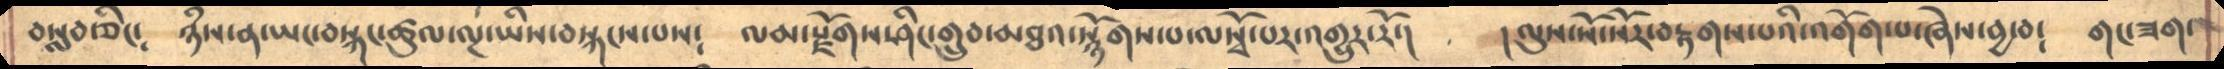བསླབ་ཅིང༴   ཉྃས་ན་ཡང་བསྐང་ཚུལ་ལྔ་ཡིས་བསྐངས་པས༴   ལམ་རྫོགས་ཤིང་གྲུབ་མཐའ་སྙོགས་པ་ལསྭོ་པར་འགྱུར་རོ་།   །ལུས་སོ་སོར་བརྟགས་པའི་འགོག་པ་ཞེས་བྱ་བ༴  གང་ཟག་
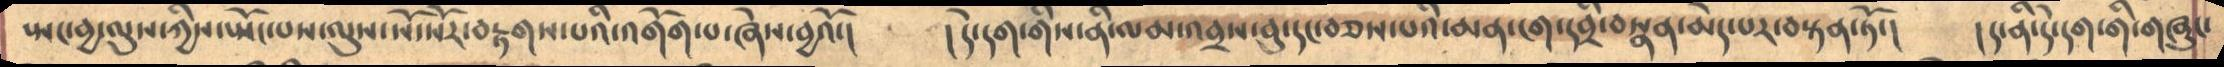སྤང་བྱ་ལུས་ཀྱིས་སྤོང་པས་ལུས་སོ་སོར་བརྟགས་པའི་འགོག་པ་ཞེས་བྱའོ་།   །དེ་དག་གིས་ནི་ལམ་འབྲས་བུ་དང་བཅས་པའི་མན་ངག་དབྲི་བསྣན་མེད་པར་བསྟན་ཏོ་།   །ད་ནི་དེ་དག་གི་གཞུང་
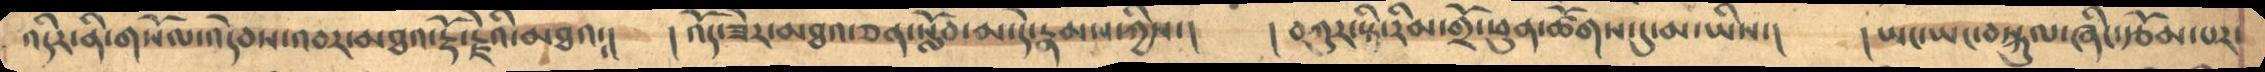འདིར་ནི་གསོལ་འདེབས་འབར་མཐའ་རྡོ་རྗེའི་མཐའ༴།  །འོད་ཟེར་མཐའ་ཅན་སློབ་མ་དེ་རྣམས་ཀྱིས་།  ། བཀུར་སྟི་རིམ་གྲོ་ཕུན་ཚོགས་དུ་མ་ཡིས་།   ། ཡང་ཡང་བསྐུལ་ཞིང་རྩོམ་པར་
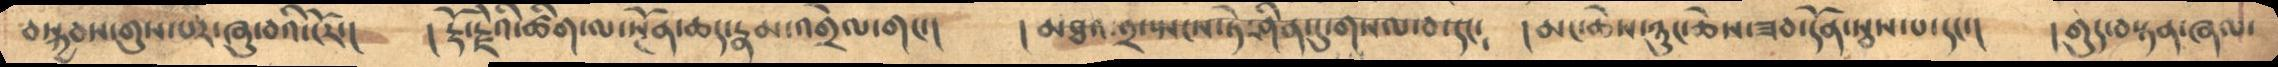བསྐྱབས་གུས་པར་ཞུ་བའི་ངོར་།    །རྡོ་རྗེའི་ཚིག་ལ་སྔོན་ཆད་རྣམ་འགྲེལ་གང་།   ། མཐའ་༢་སྤངས་ཏེ་ཤིན་དུ་གསལ་བ་དང༴   །མང་ཆེས་ཉུང་ཅེས་ཟབ་དོན་སྦས་པ་དང་།   །གུད་བསྟན་ཞལ་
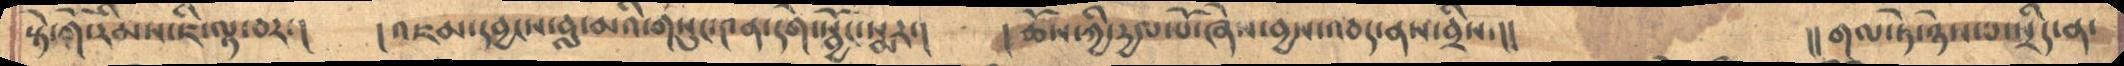སྟེ་གོ་རིམས་ཇི་ལྟ་བར་།    ། འཇམ་དབྱངས་བླ་མའི་གསུང་༤ན་དགེ་སྦྱོང་སྨར་།    ། ཆོས་ཀྱི་དྱལ་པོ་ཞེས་བྱས་འབད་ནས་བྲིས་།།        །། གལ་ཏེ་ཉེས་པ་སྲིད་ན་
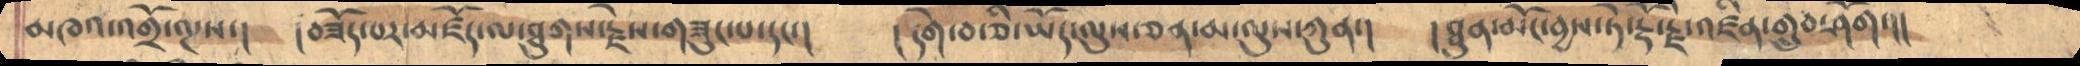མཁའ་འགྲོ་ལྔས་།     །བཟོད་པར་མཛོད་ལ་ཐུགས་རྗེས་གཟུང་པ་དང་།     ། དགེ་བ་ཅི་ཡོད་ལུས་ཅན་མ་ལུས་ཀུན་།    ། ཐུན་མོང་བྱས་ཏེ་རྡོ་རྗེ་འཛིན་གྲུབ་ཤོག་།།
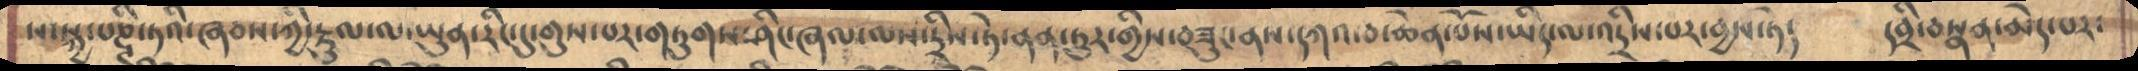ས་སྐྱ་པཎྚི་ཏའི་ཞབས་ཀྱི་རྡུལ་ལ་ཡུན་རིང་དུ་གུས་པར་གཏུགས་ཤིང་ཞལ་ལས་དྲིས་ཏེ་ནན་ཏུར་གྱིས་བཟུང་ནས་དཀའ་བ་ཆེན་པོས་ཡིད་ལ་འདྲིས་པར་བྱས་ཏེ༴   དབྲི་བསྣན་མེད་པར་
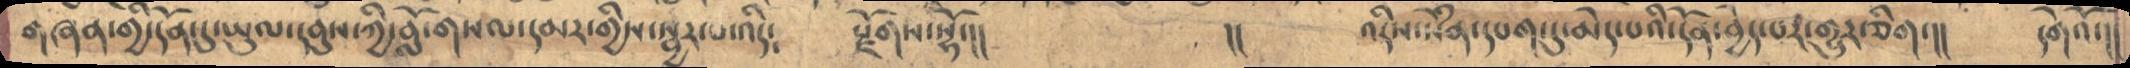གཞན་གྱི་དོན་དུ་ཡུལ་དབུས་ཀྱི་བློ་གསལ་དམར་གྱིས་སྦྱར་པ་འདི༴   རྫོགས་སྷོ་།།            །།    འདིས་སེཾན་དཔག་དུ་མེད་པའི་དོན་བྱེད་པར་གྱུར་ཅིག་།།      དགེའོ་།།
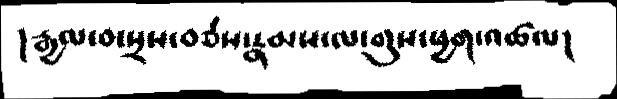།རྒྱལ་བ་སྲས་བཅས་རྣམས་ལ་གུས་ཕྱག་འཚལ།
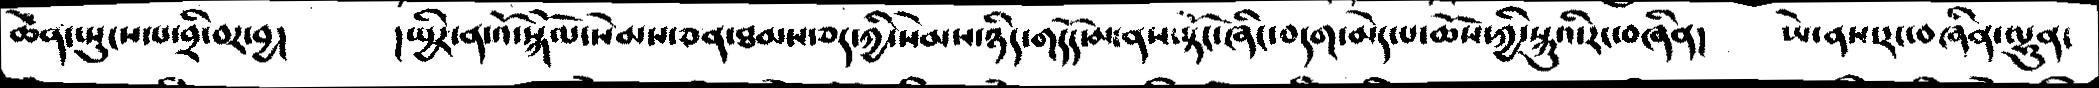ཆེན་སྤུངས་པ་བྲི་བར་བྱ།    །སྤྱིར་ན་འོ་སྐོལ་སེམས་ཅན་ཐམས་ཅད་ཀྱི་སེམས་ཉིད་གདོད་མ་ནས་སྟོང་ཞིང་བདག་མེད་པ་ཆོས་ཀྱི་སྐུའི་རང་བཞིན།  ཡེ་ནས་རང་བཞིན་ལྷུན་
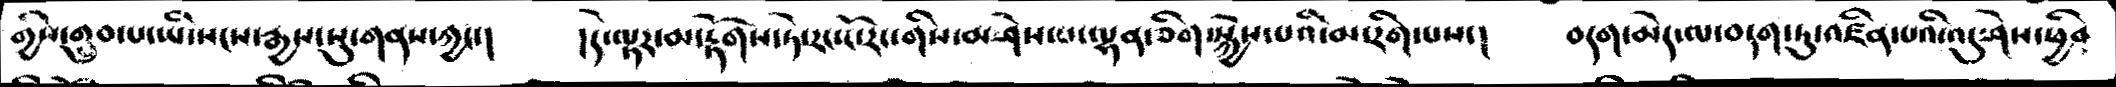གྱིས་གྲུབ་པ་ཡི་སངས་རྒྱས་སུ་གནས་ཀྱང་།   །དེ་ལྟར་མ་རྟོགས་ཏེ་རང་ངོ་རང་གིས་མ་ཤེས་པ་ལྷན་ཅིག་སྐྱེས་པའི་མ་རིག་པས་།   བདག་མེད་ལ་བདག་ཏུ་འཛིན་པའི་འདུ་ཤེས་ཕྱིན
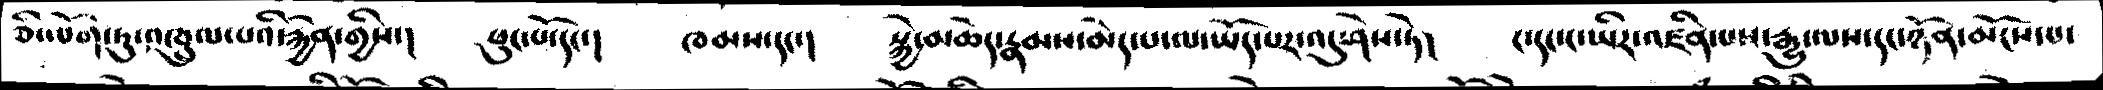ཅི་ལོག་ཏུ་འཁྲུལ་པའི་རྐྱེན་གྱིས་།  ཕུང་པོ་དང་།  ཁམས་དང་།  སྐྱེ་མཆེད་རྣམས་མེད་པ་ལ་ཡོད་པར་འདུ་ཤེས་ཏེ།    ང་དང་ང་ཡིར་འཛིན་པས་རྒྱུ་ལས་དང་ཉོན་མོངས་པ་
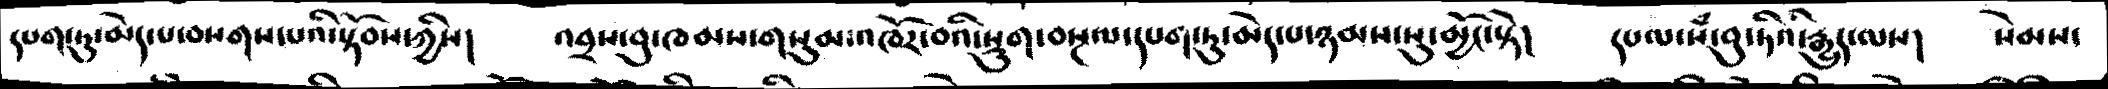དཔག་ཏུ་མེད་པ་བསགས་པའི་སྟོབས་ཀྱིས།    འབྲས་བུ་ཁམས་གསུམ་འཁོར་བའི་སྡུག་བསྔལ་དཔག་ཏུ་མེད་པ་ཉམས་སུ་མྱོང་སྟེ།   དཔལ་སྃ་བུ་ཏིའི་རྒྱུད་ལས།    སེམས་
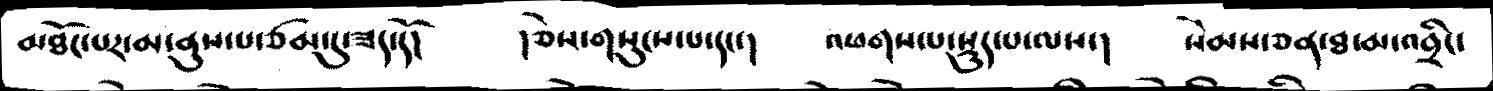མཐོང་པར་མ་ནུས་པ་ཙམ་དུ་ཟད་དོ།  །ཅེས་གསུངས་པ་དང་།  འཕགས་པ་སྡུད་པ་ལས་།  སེམས་ཅན་ཐ་མ་འབྲིང་
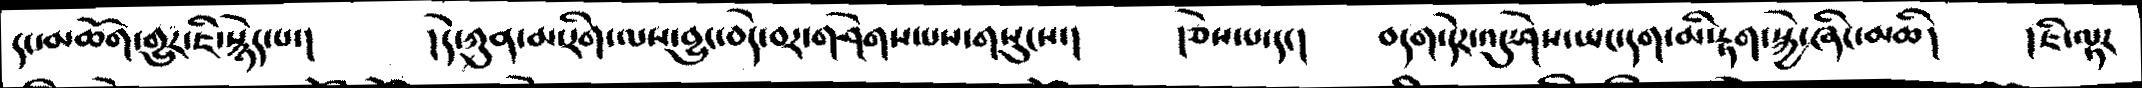དང་མཆོག་གྱུར་ཇི་སྙེད་པ་།  །དེ་ཀུན་མ་རིག་ལས་བྱུང་བདེ་བར་གཤེགས་པས་གསུངས་།  །ཅེས་པ་དང། བདག་དེར་འདུ་ཤེས་ཡང་དག་མི་རྟག་སྐྱེ་ཞིང་མཆི།  །ཇི་ལྟར
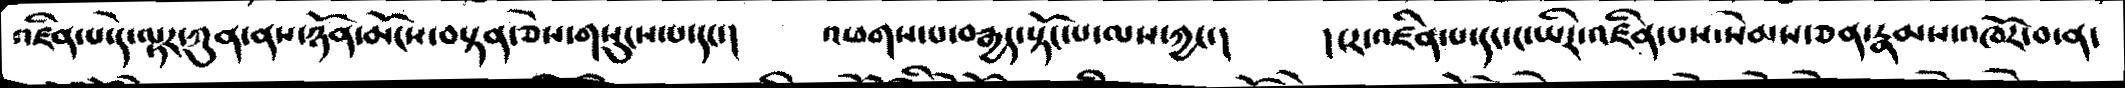འཛིན་པ་དེ་ལྟར་ཀུན་ནས་ཉོན་མོངས་བསྟན་ཅེས་གསུངས་པ་དང་།   འཕགས་པ་བརྒྱད་སྟོང་པ་ལས་ཀྱང་།  ། ངར་འཛིན་པ་དང་ང་ཡིར་འཛིན་པས་སེམས་ཅན་རྣམས་འཁོར་བ་ན་
